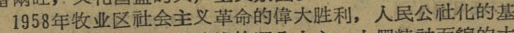1958年牧业区社会主义革命的偉大胜利，人民公社化的基
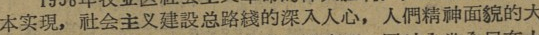本实現，社会主义建設总路綫的深入人心，人們精神面貌的大
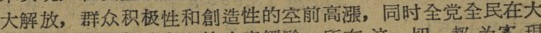大解放，群众积极性和創造性的空前高涨，同时全党全民在大
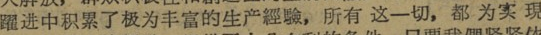躍进中积累了极为丰富的生产經驗，所有 这一切，都 为实現
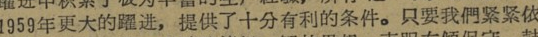1959年更大的躍进，提供了十分有利的条件。只要我們紧紧依
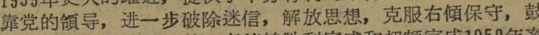靠党的領导，进一步破除迷信，解放思想，克服右傾保守，鼓
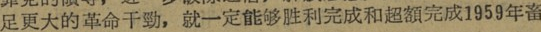足更大的革命干勁，就一定能够胜利完成和超額完成1959年畜
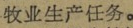牧业生产任务。
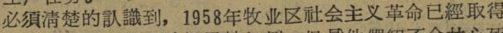必須清楚的认識到，1958年牧业区社会主义革命已經取得
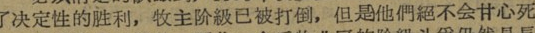了决定性的胜利，牧主阶級已被打倒，但是他們絕不会甘心死
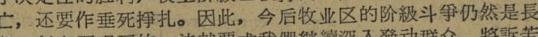亡，还要作垂死掙扎。因此，今后牧业区的阶級斗爭仍然是長
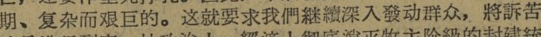期、复杂而艰巨的。这就要求我們継續深入發动群众，將訴苦
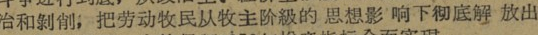治和剝削；把劳动牧民从牧主阶級的 思想影 响下彻底解 放出
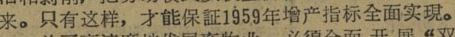来。只有这样，才能保証1959年增产指标全面实現。
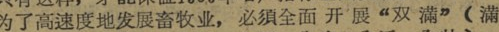为了高速度地发展畜牧业，必須全面 开 展“双 滿”（滿
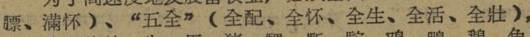膘、滿怀）、“五全”（全配、全怀、全生、全活、全壯），
